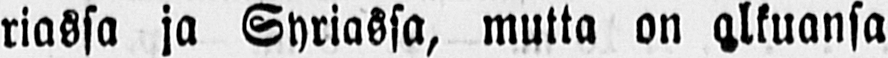riassa ja Syriassa, mutta on alkuansa
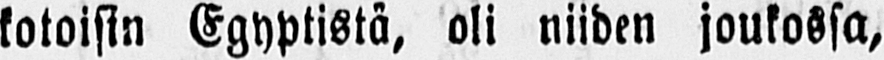kotoisin Egyptistä, oli niiden joukossa,
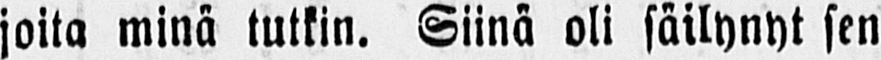joita minä tutkin. Siinä oli säilynyt sen
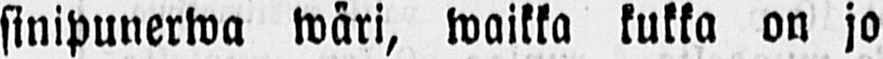sinipunerwa wäri, waikka kukka on jo
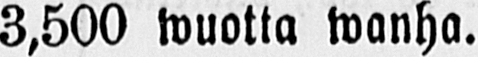3,500 wuotta wanha.
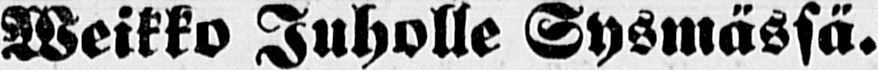Weikko Juholle Sysmässä.
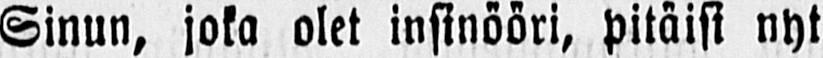Sinun, joka olet insinööri, pitäisi nyt
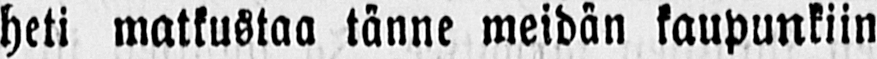heti matkustaa tänne meidän kaupunkiin
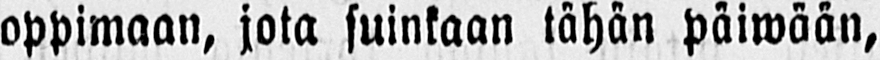oppimaan, jota suinkaan tähän päiwään,
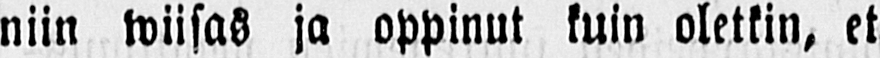niin wiisas ja oppinut kuin oletkin, et
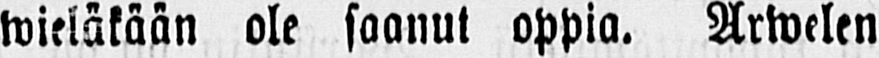wieläkään ole saanut oppia. Arwelen
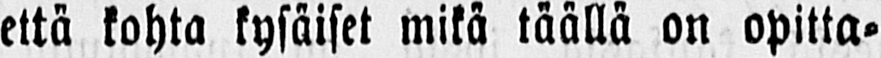että kohta kysäiset mikä täällä on opitta-
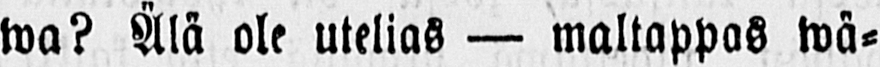ko? Älä ole utelias — maltappas wä-
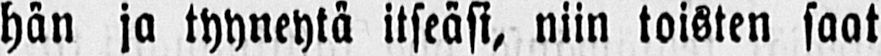hän ja tyyneytä itseäsi, niin toisten saat
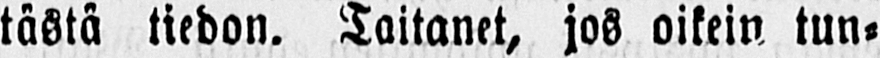tästä tiedon. Taitanet, jos oikein tun-
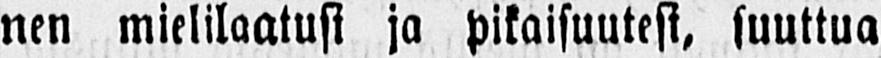nen mielilaatusi ja pikaisuutesi, suuttua
